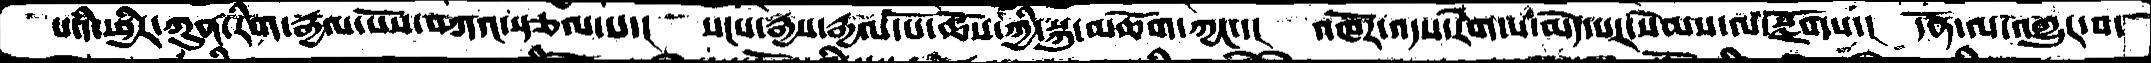པའི་ཕྱིར་ཀུན་རིག་རྒྱལ་པོས་བཀའ་སྩལ་པ་།   སངས་རྒྱས་རྒྱལ་པོ་ཆོས་ཀྱིི་སྐུ་མཆོག་ཀྱང་།   འཁོར་འདས་རེག་པ་མེད་པར་སེམས་ལ་སྫོགས་།   དོན་ལ་འགྱུར་བ་
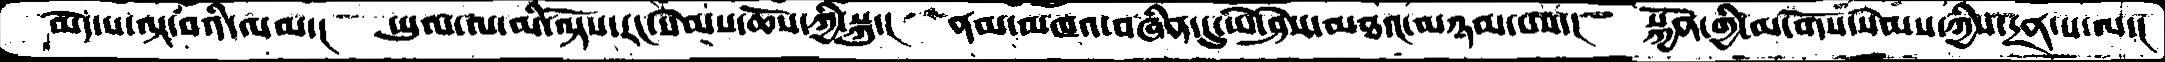མེད་པ་ལྟ་བའི་ལམ་།   ཡུལ་ལ་མི་ལྟོས་རང་སེམས་ཆོས་ཀྱི་སྐུ་།   ནམ་མཁའ་བཞིན་དུ་ཡེ་ཤེས་མཐའ་མཉམ་པས་།   སྐྱོན་གྱི་མ་གོས་སེམས་ཀྱིས་དྲན་པ་ལ་།
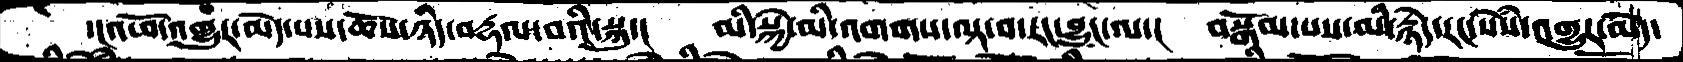་།འཕོ་འགྱུར་མེད་པས་ཆོས་ཉིད་བརྡལ་བའི་སྐུ་།   མི་སྐྱེ་མི་འགགས་ལྟ་བ་རང་བྱུང་ལ་།    བསྒོམ་པས་མི་རྙེད་རང་སེསཾ་འགྱུར་མེད་
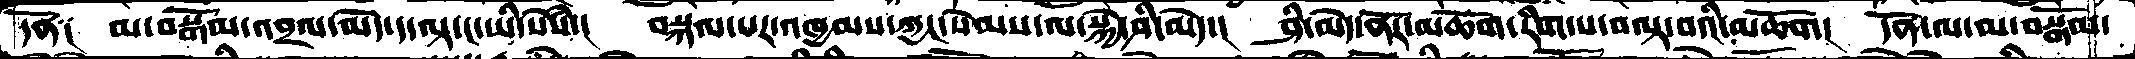དོན༑  མ་བསྒོམ་འབྲལ་མེད་ད་ལྟ་ང་ཡི་སེསཾ་།   བསྐལ་པར་འཁྱམས་ཀྱང་སེམས་ལ་སྐྱེ་ཤི་མེད་།   ཤི་མེད་ནོར་མཆོག་རིག་པ་བལྟ་བའི་མཆོག།   དོན་ལ་མ་བསྒོོམ་
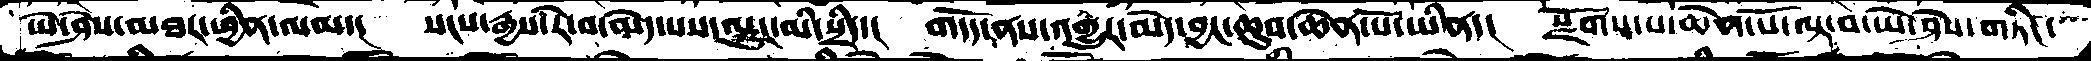ཡེ་ཤེས་མཐར་ཕྱིན་ལམ་།   སངས་རྒྱས་རེ་བ་མེད་པས་ལྟུང་མི་སྲིད་།   གདོད་ནས་འགྱུར་མེད་བྱང་ཆུབ་ཆེན་པོ་ཡིན་།   སྫོགས་པ་ཆེན་པོ་ལྟ་བ་ཡེ་ཤེས་གཏིང་
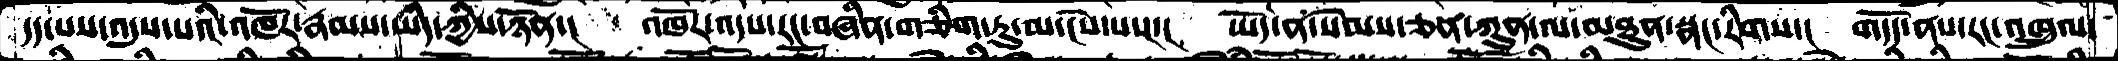དད་པས་འདུས་པའི་འཁོར་རྣམས་ཡིད་ཀྱིས་ཉོན་།  འཁོར་འདས་རང་བཞིན་གཅིག་ཏུ་མ་ངེས་པས་།  ཡོད་ན་སེམས་ཅན་ཀུན་ལ་མཐུན་སྣང་རིགས་།  གདོད་ནས་རང་འཁྲུལ་
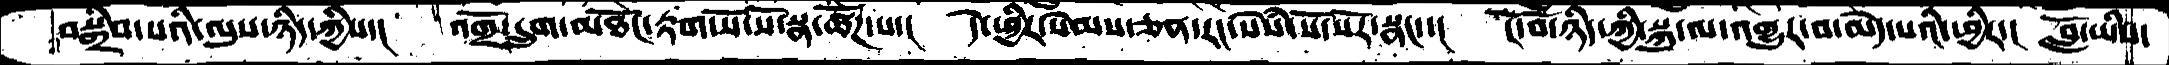བསྒྲིབ་པའི་ལུས་ཉིད་ཀྱིས་།   འགྲོ་དྲུག་མཐོང་རྟག་སོ་སོ་སྣ་ཚོཌ་པ་།  དེ་ཕྱིར་སེམས་ཅན་རང་སེཾས་སོ་སོར་སྣང་་།  ངོ་བོ་ཉིད་ཀྱི་སྐུ་ལ་འགྱུར་བ་མེད་པའི་ཕྱིར་།  བློ་ཡིས་
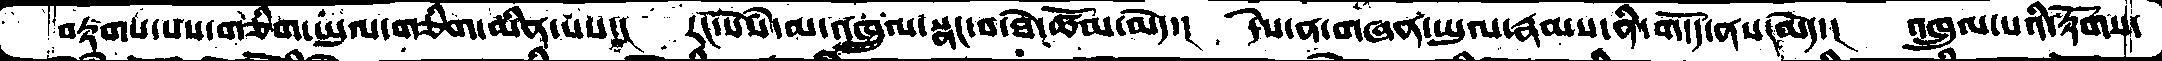བརྟགས་པས་གཅིག་ཡུལ་གཅིག་མིན་པས་།   རང་སེཾས་མ་འཁྲུལ་སྣང་བ་ཐེ་ཚོམ་མེད་།  དེས་ན་གཞན་ཡུལ་རྣམས་ནི་གདོད་ནས་མེད་།   འཁྲུལ་པའི་རྟོགས་
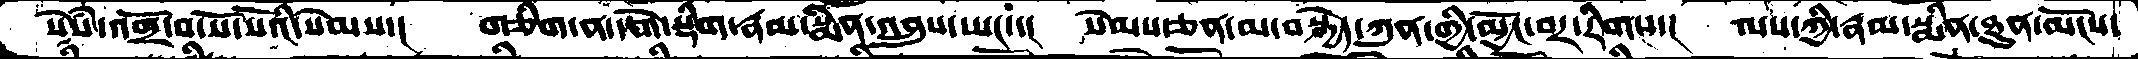སེཾས་འགྲོ་བ་སོ་སོའི་སེམས་།  གཅིག་ན་དགེ་སྡིག་རྣམ་སྨིན་འབྲུས་ཡང་་།  སེམས་ཅན་མ་བསྐྱེད་ཀུན་གྱི་མྱོང་བར་རིགས་།  ལས་ཀྱི་རྣམ་སྨིན་ཐུན་མོངས་
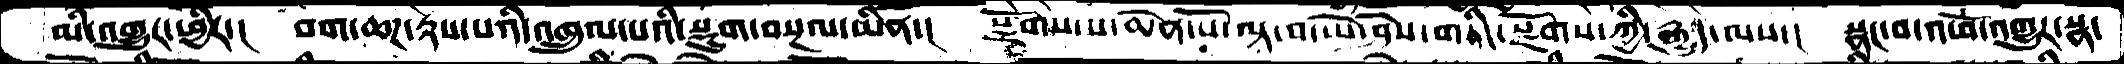མི་འགྱུར་ཕྱིར་།  བག་ཆཌ་རྟས་པའི་འཁྲུལ་པའི་སྡུག་བསྔལ་ཡིན་།  སྫོགས་པ་ཆེན་པོ་ལྟ་བ་ཡེ་ཤེས་གཏིང་སྫོགས་ཀྱི་རྒྱུད་ལས་།  སྣང་བ་འཕོ་འགྱུར་སྣ་
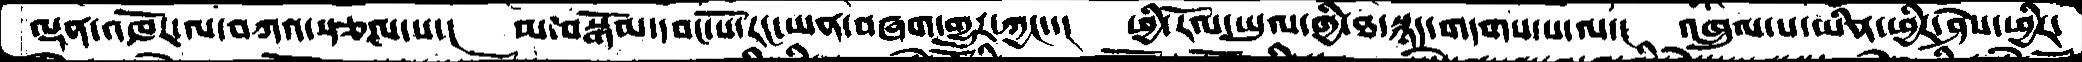ལྡན་འཁོར་ལ་བཀའ་སཅལ་པ་། མ་བསྒོམ་དབང་པོ་རང་ཡན་བཞག་གྱུར་ཀྱང་་། ཕྱི་རོལ་ཡུལ་གྱི་ཐ་སྙད་གདགས་པ་ལ་། འཁྲུལ་པ་ཡིན་ཕྱིར་ཤེས་ཕྱིར་
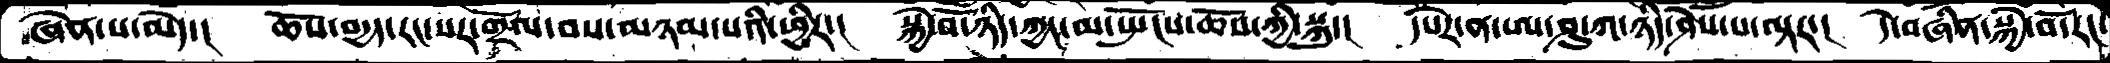ཞེན་པ་མེད་།  ཆོས་བདྱད་རང་སར་གྲོལ་བས་མཉམ་པའི་ཕྱིར་།  སྐྱེ་བོ་ཉིད་ཀྱང་མ་སྤོངས་ཆོས་ཀྱི་སྐུ་།  དཔེར་ན་ཨ་ཤུ་ཀ་ཉིད་ཤེས་པ་ལྟར་།  དེ་བཞིན་སྐྱེ་བོ་རང་
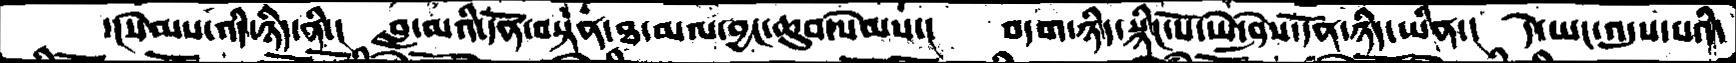་།སེམས་འདི་ཉིད་ནི་།  བླ་མའི་དོན་བསྟན་ཐ་མལ་བྱང་ཆུབ་སེམས་།   བདག་ཉིད་སྙིང་པོ་ཡེ་ཤེས་དོན་ཉིད་ཡིན་།  དེ་ཡང་འདུས་པའི་
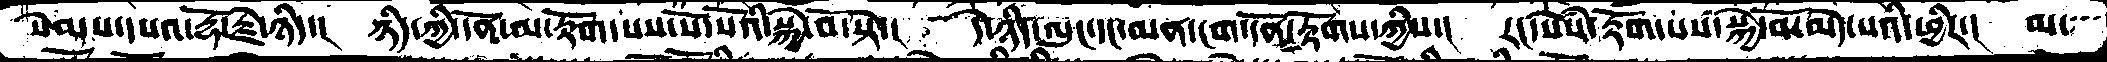སེམས་དཔའ་རྡོ་རྗེ་ཉིད་།  ཉིད་ཀྱི་དོན་མ་རྟོག་པས་སོ་སོའི་སྐྱེ་བོ་སྟེ་།  དེ་ཉིད་ལུང་དང་མན་ངག་དོན་རྟགོགས་ཀྱིས་།  རང་སེཾས་རྟོག་པས་སྐྱེ་བོ་མེད་པའི་ཕྱིར་།  མ་
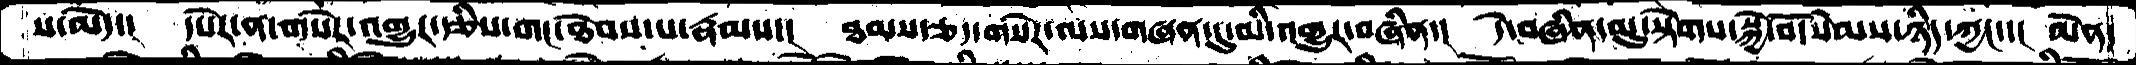ས་མེད་། དཔེར་ན་གསེར་འགྱུར་དཅིས་གང་ཐེབས་པ་རྣམས་། ཐམས་ཅད་གསེར་ལས་གཞན་དུ་མི་འགྱུར་བཞིན་། དེ་བཞིན་མུ་སྟེགས་སྐྱེ་བོ་སེམས་ཉིད་ཀྱང་་། མོན་
